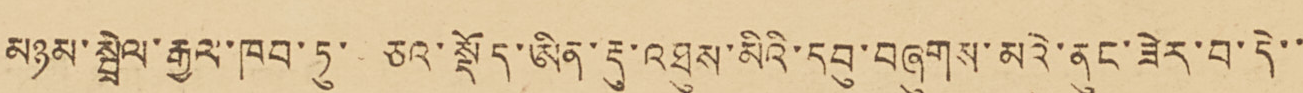མཉམ་སྦྲེལ་རྒྱལ་ཁབ་ཏུ་བཅའ་སྡོད་ཨིན་རྡུ་འཐུས་མིའི་དབུ་བཞུགས་མའེ་ནུང་ཟེར་བ་དེ་་་
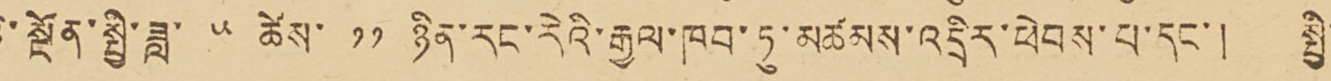ཉེ་སྔོན་སྤྱི་ཟླ་༥ཚེས་༡༡ཉིན་རང་རེའི་རྒྱལ་ཁབ་ཏུ་མཚམས་འདྲིར་ཕེབས་པ་དང་། སྤྱི་་
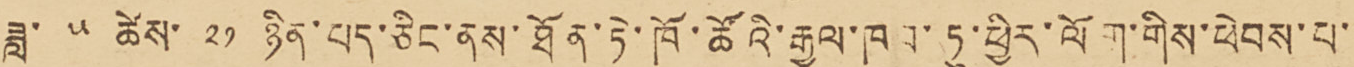ཟླ་ ༥ ཚེས་ ༢༡ ཉིན་པད་ཅིང་ནས་ཐོན་ཏེ་ཁོ་ཚོའི་རྒྱལ་ཁབ་ཏུ་ཕྱིར་ལོག་གིས་ཕེབས་པ་་་
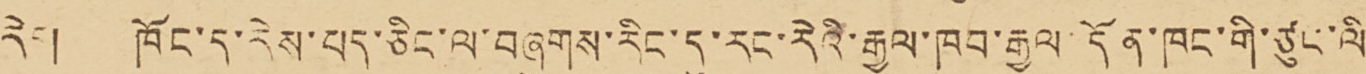རེད། ཁོང་ད་རེས་པད་ཅིང་ལ་བཞུགས་རིང་དུ་རང་རེའི་རྒྱལ་ཁབ་རྒྱལ་དོན་ཁང་གི་ཙུང་ལི་
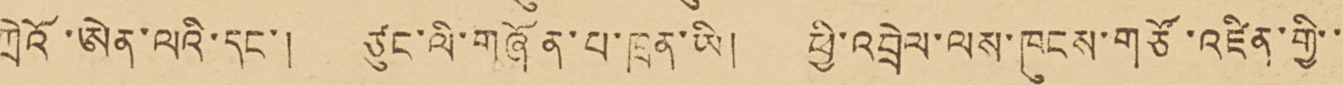ཀྲེའོ་ཨེན་ལའི་དང་། ཙུང་ལི་གཞོན་པ་ཁྲན་ཡི། ཕྱི་འབྲེལ་ལས་ཁུངས་གཙོ་འཛིན་གྱི་་་་
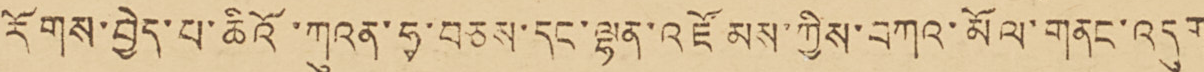རོགས་བྱེད་པ་ཆིའོ་ཀུའན་ཧྭ་བཅས་དང་ལྷན་འཛོམས་ཀྱིས་བཀའ་མོལ་གནང་འདུག
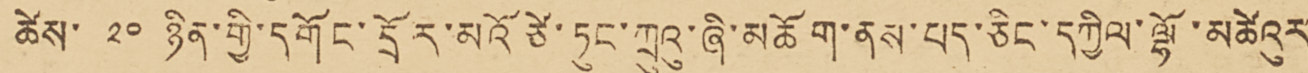ཚེས་ ༢༠ ཉིན་གྱི་དགོང་དྲོར་མའོ་རྩེ་ཏུང་ཀྲུའུ་ཞི་མཆོག་ནས་པད་ཅིང་དཀྱིལ་ལྷོ་མཚེའུར་
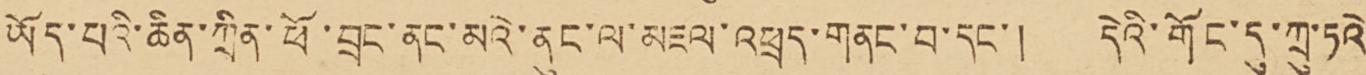ཡོད་པའི་ཆིན་ཀྲིན་ཕོ་བྲང་ནང་མའེ་ནུང་ལ་མཇལ་འཕྲད་གནང་བ་དང་། དེའི་གོང་དུ་ཀྲུ་ཏའེ་
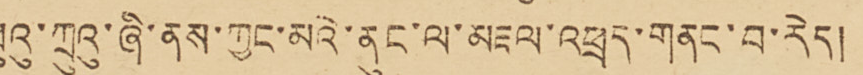ཕུའུ་ཀྲུའུ་ཞི་ནས་ཀྱང་མའེ་ནུང་ལ་མཇལ་འཕྲད་གནང་བ་རེད།
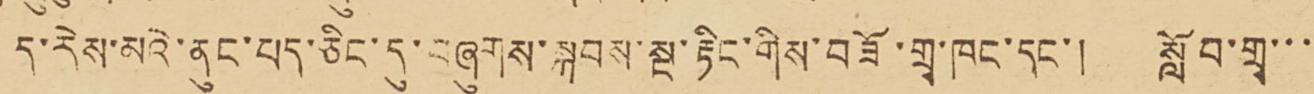ད་རེས་མའེ་ནུང་པད་ཅིང་དུ་བཞུགས་སྐབས་སྔ་རྟིང་གིས་བཟོ་གྲྭ་ཁང་དང་། སློབ་གྲྭ་་་་
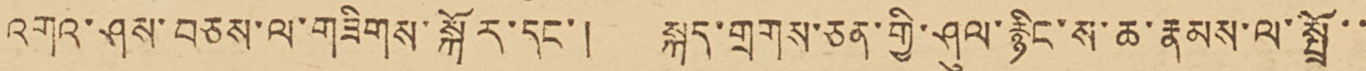འགའ་ཤས་བཅས་ལ་གཟིགས་སྐོར་དང་། སྐད་གྲགས་ཅན་གྱི་ཤུལ་རྙིང་ས་ཆ་རྣམས་ལ་སྤྲོ་་་
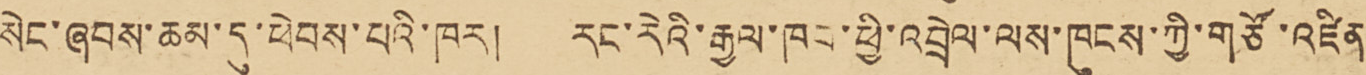སེང་ཞབས་ཆམ་དུ་ཕེབས་པའི་ཁར། རང་རེའི་རྒྱལ་ཁབ་ཕྱི་འབྲེལ་ལས་ཁུངས་ཀྱི་གཙོ་འཛིན་
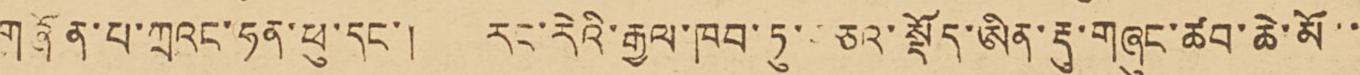གཞོན་པ་ཀྲའང་ཧན་ཕུ་དང་། རང་རེའི་རྒྱལ་ཁབ་དུ་བཅའ་སྡོད་ཨིན་རྡུ་གཞུང་ཚབ་ཆེ་མོ་་་
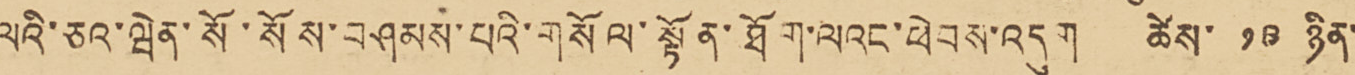ལའི་ཅའ་ལྦེན་སོ་སོས་བཤམས་པའི་གསོལ་སྟོན་ཐོག་ལའང་ཕེབས་འདུག ཚེ་ ༡༩ ཉིན་་
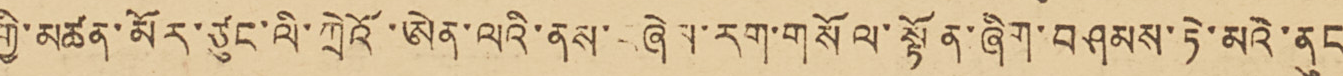གྱི་མཚན་མོར་ཙུང་ལི་ཀྲེའོ་ཨེན་ལའི་ནས་བཞེས་རག་གསོལ་སྟོན་ཞིག་བཤམས་ཏེ་མའི་ནུང་་
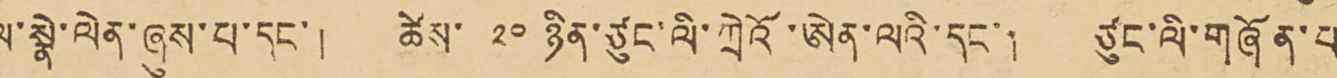ལ་སྣེ་ལེན་ཞུས་པ་དང་། ཚེས་ ༢༠ ཉིན་ཙུང་ལི་ཀྲེའོ་ཨེན་ལའི་དང་། ཙུང་ལི་གཞོན་པ་་
